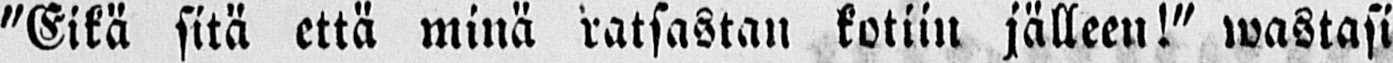"Eikä sitä että minä ratsastan kotiin jälleen!" wastasi
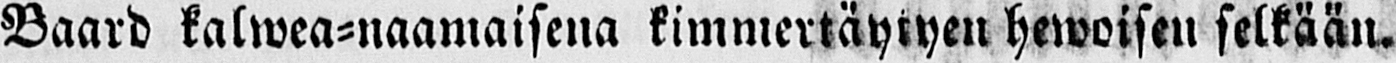Baard kalwea-naamaisena kimmertäytyen hewoisen selkään.
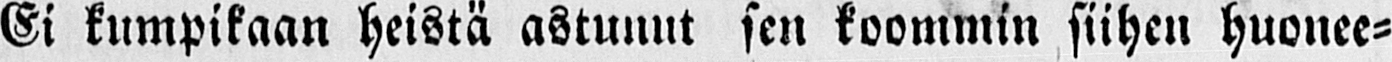Ei kumpikaan heistä astunut sen koommin siihen huonee-
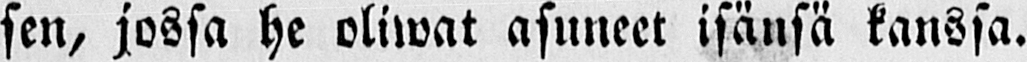sen, jossa he oliwat asuneet isänsä kanssa.
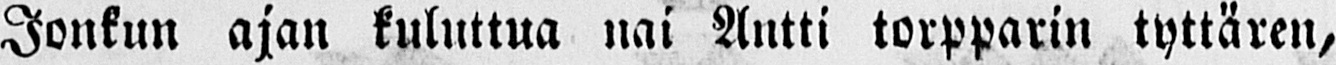Jonkun ajan kuluttua nai Antti torpparin tyttären,
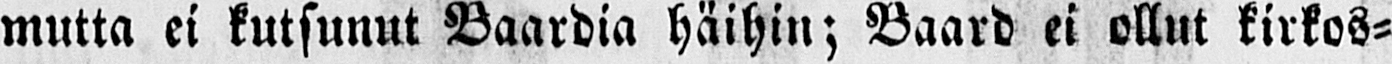mutta ei kutsunut Baardia häihin; Baard ei ollut kirkos-
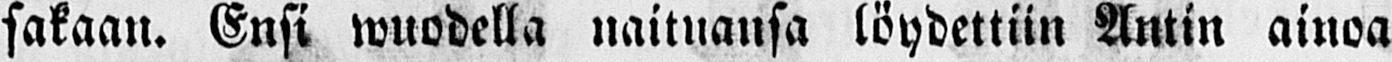sakaan. Ensi wuodella naituansa löydettiin Antin ainoa
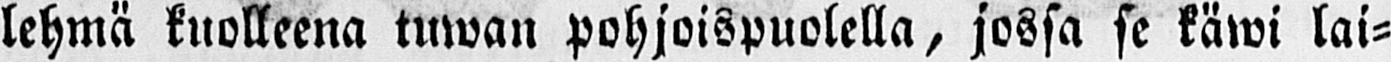lehmä kuolleena tuwan pohjoispuolella, jossa se käwi lai-
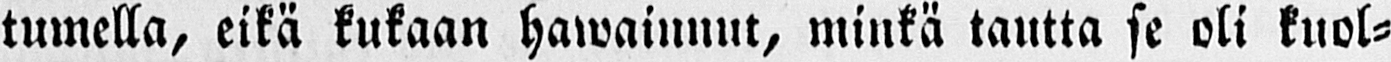tumella, eikä kukaan hawainnut, minkä tautta se oli kuol-
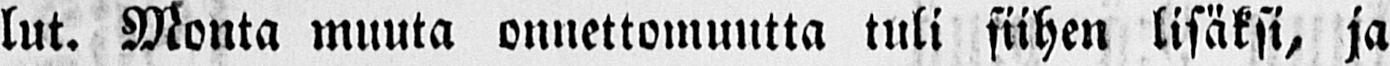lut. Monta muuta onnettomuutta tuli siihen lisäksi, ja
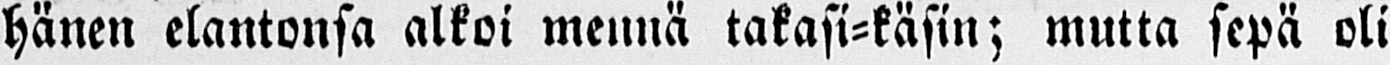hänen elantonsa alkoi mennä takasi-käsin; mutta sepä oli
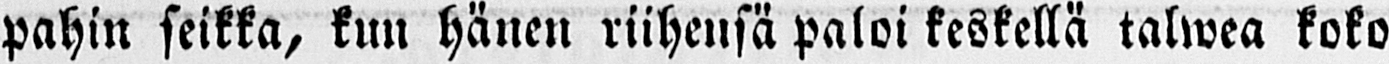pahin seikka, kun hänen riihensä paloi keskellä talwea koko
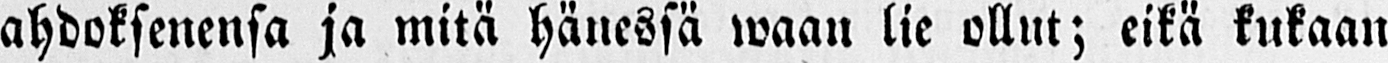ahdoksenensa ja mitä hänessä waan lie ollut; eikä kukaan
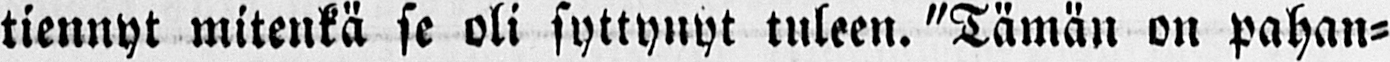tiennyt mitenkä se oli syttynyt tuleen. "Tämän on pahan-
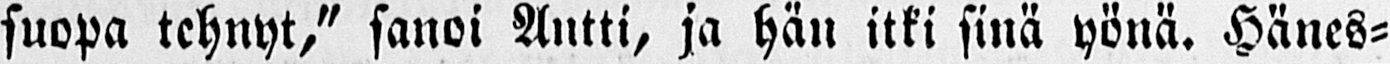suopa tehnyt," sanoi Antti, ja hän itki sinä yönä. Hänes-
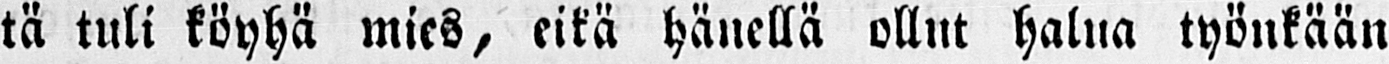tä tuli köyhä mies, eikä hänellä ollut halua työnkään
